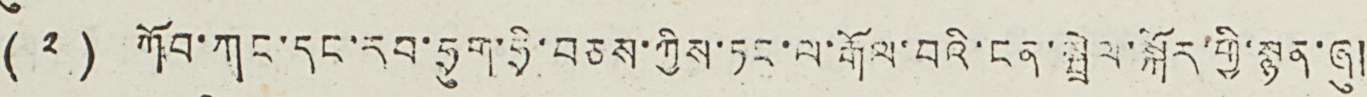(༢) ཀོབ་ཀང་དང་རབ་ཧྲུག་ཧྲི་བཅས་ཀྱིས་ཏང་ལ་རྒོལ་བའི་ངན་སྦྲེལ་སྐོར་གྱི་སྙན་ཞུ།
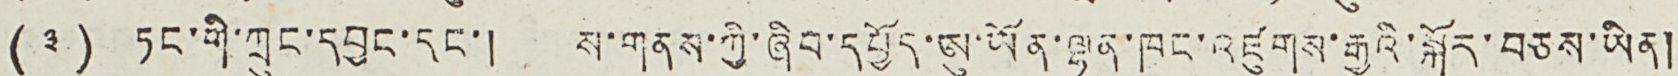(༣) ཏང་གི་ཀྲུང་དབྱང་དང་། ས་གནས་ཀྱི་ཞིབ་དཔྱོད་ཨུ་ཡོན་ལྷན་ཁང་འཛུགས་རྒྱུའི་སྐོར་བཅས་ཡིན།
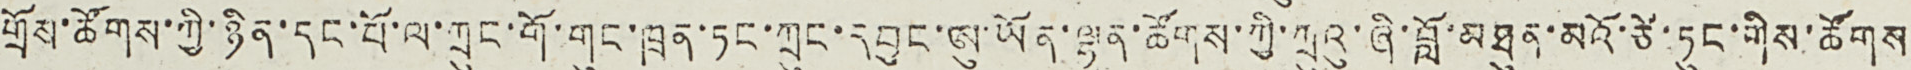གྲོས་ཚོགས་ཀྱི་ཉིན་དང་པོ་ལ་ཀྲུང་གོ་གུང་ཁྲན་ཏང་ཀྲུང་དབྱང་ཨུ་ཡོན་ལྷན་ཚོགས་ཀྱི་ཀྲུའུ་ཞི་བློ་མཐུན་མའོ་ཙེ་ཏུང་གིས་ཚོགས
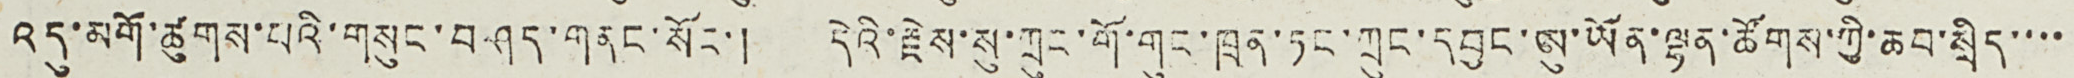འདུ་མགོ་ཚུགས་པའི་གསུང་བཤད་གནང་སོང་། དེའི་རྗེས་སུ་ཀྲུང་གོ་གུང་ཁྲན་ཏང་ཀྲུང་དབྱང་ཨུ་ཡོན་ལྷན་ཚོགས་ཀྱི་ཆབ་སྲིད་་་་
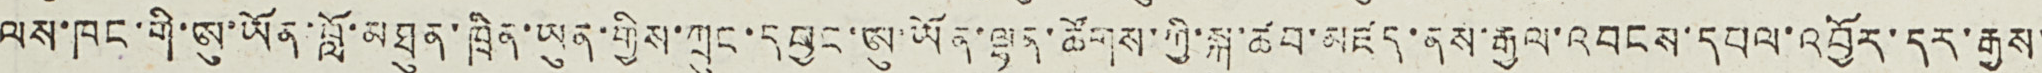ལས་ཁང་གི་ཨུ་ཡོན་བློ་མཐུན་ཁྲིན་ཡུན་གྱིས་ཀྲུང་དབྱང་ཨུ་ཡོན་ལྷན་ཚོགས་ཀྱི་སྐུ་ཚབ་མཛད་ནས་རྒྱལ་འབངས་དཔལ་འབྱོར་དར་རྒྱས་
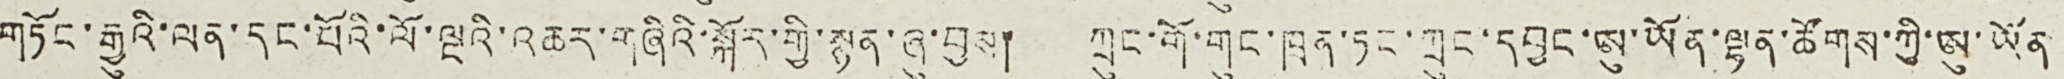གོང་རྒྱུའི་ལན་དང་པོའི་ལོ་ལྔའི་འཆར་གཞིའི་སྐོར་གྱི་སྙན་ཞུ་བྱས། ཀྲུང་གོ་གུང་ཁྲན་ཏང་ཀྲུང་དབྱང་ཨུ་ཡོན་ལྷན་ཚོགས་ཀྱི་ཨུ་ཡོན་
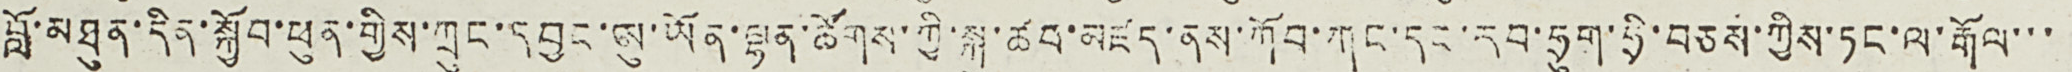བློ་མཐུན་དིན་སྐྱོབ་ཕུན་གྱིས་ཀྲུང་དབྱང་ཨུ་ཡོན་ལྷན་ཚོགས་ཀྱི་སྐུ་ཚབ་མཛད་ནས་ཀོབ་ཀང་དང་རབ་ཧྲུག་ཧྲི་བཅས་ཀྱིས་ཏང་ལ་རྒོལ་་་
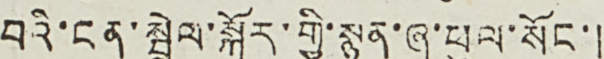བའི་ངན་སྦྲེལ་སྐོར་གྱི་སྙན་ཞུ་ཕུལ་སོང་།
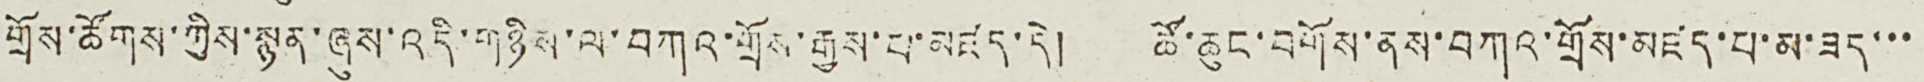གྲོས་ཚོགས་ཀྱིས་སྙན་ཞུས་འདི་གཉིས་ལ་བཀའ་གྲོས་རྒྱས་པ་མཛད་དེ། ཚོ་ཆུང་བགོས་ནས་བཀའ་གྲོས་མཛད་པ་མ་ཟད་་་
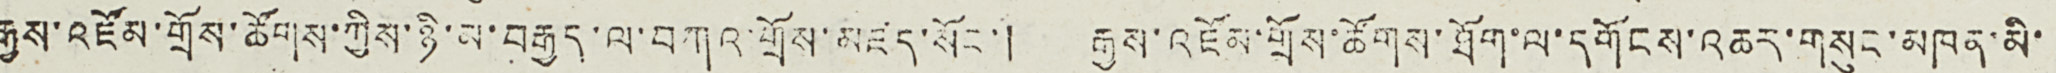རྒྱས་འཛོམ་གྲོས་ཚོགས་ཀྱི་ཉི་མ་བརྒྱད་ལ་བཀའ་གྲོས་མཛད་སོང་། རྒྱས་འཛོམ་གྲོས་ཚོགས་ཐོག་ལ་དགོངས་འཆར་གསུང་མཁན་མི་
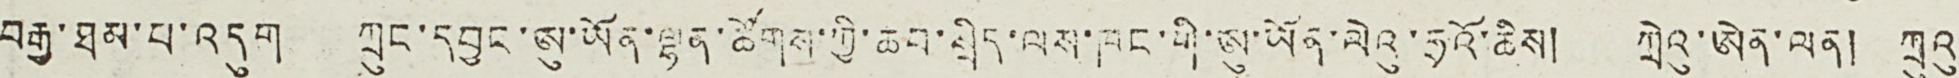བརྒྱ་ཐམ་པ་འདུག ཀྲུང་དབྱང་ཨུ་ཡོན་ལྷན་ཚོགས་ཀྱི་ཆབ་སྲིད་ལས་ཁང་གི་ཨུ་ཡོན་ལེའུ་ཧྲའོ་ཆིས། ཀྲེའུ་ཨེན་ལན། ཀྲུའུ་
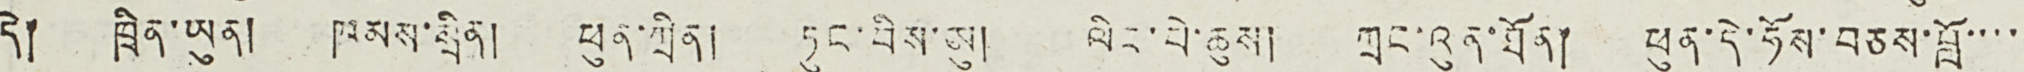དེ། ཁྲིན་ཡུན། ཁམས་སྲིན། ཕུན་ཀྲིན། ཏུང་བིས་ཨུ། ལིང་པེ་ཆུས། ཀྲུང་འུན་ཐོན། ཕུན་དེ་ཧོས་བཅས་བློ་་་་་་
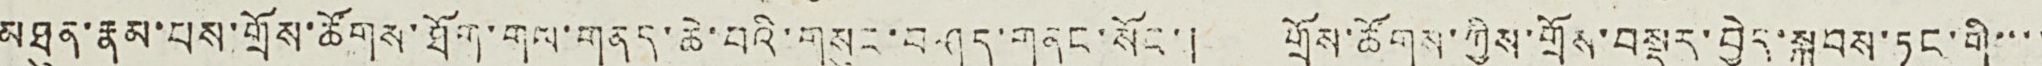མཐུན་རྣམས་པས་གྲོས་ཚོགས་ཐོག་གལ་གནད་ཆེ་བའི་གསུང་བཤད་གནང་སོང་། གྲོས་ཚོགས་ཀྱིས་གྲོས་བསྡུར་བྱེད་སྐབས་ཏང་གི་་་་
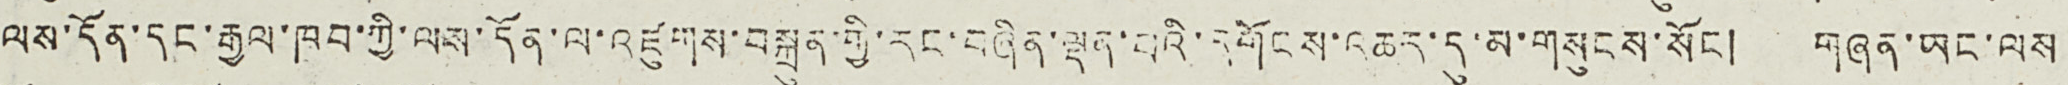ལས་དོན་དང་རྒྱལ་ཁབ་ཀྱི་ལས་དོན་ལ་འཛུགས་བསྐྲུན་གྱི་རང་བཞིན་ལྡན་པའི་དགོངས་འཆར་དུ་མ་གསུངས་སོང ། གཞན་ཡང་ལས
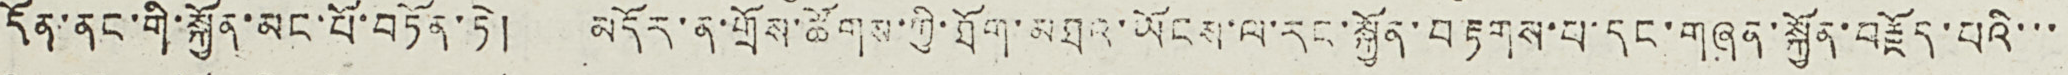དོན་ནང་གི་སྐྱོན་མང་པོ་བཏོན་ཏེ། མདོར་ན་གྲོས་ཚོགས་ཀྱི་ཐོག་མཐའ་ཡོངས་ལ་རང་སྐྱོན་བརྟགས་པ་དང་གཞན་སྐྱོན་བརྗོད་པའི་་་
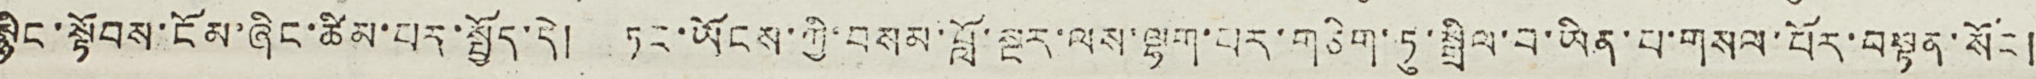སྙིང་སྟོབས་ངོམ་ཞིང་ཚིམ་པར་སྤྱོད་དེ། ཏང་ཡོངས་ཀྱི་བསམ་བློ་སྔར་ལས་ལྷག་པར་གཅིག་ཏུ་སྒྲིལ་བ་ཡིན་པ་གསལ་པོར་བསྟན་སོང །
